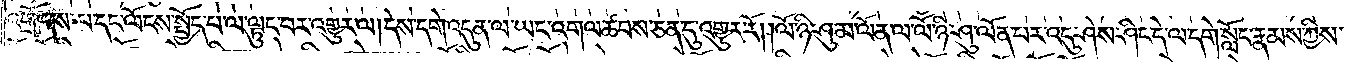འགྲོགས་པ་དང་ལོངས་སྤྱོད་པ་ལ་ལྟུང་བར་འགྱུར་ལ། དེ་དགེ་འདུན་ལ་ཡང་འགལ་ཚབས་ཅན་དུ་འགྱུར་རོ། །ལོ་ཉི་ཤུ་མ་ལོན་ལ་ལོ་ཉི་ཤུ་ལོན་པར་འདུ་ཤེས་ཤིང་དེ་ལ་དགེ་སློང་རྣམས་ཀྱིས་
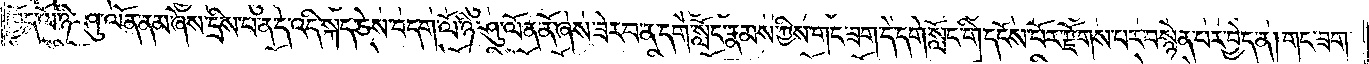ཁྱོད་ལོ་ཉི་ཤུ་ལོན་ནས་ཞེས་དྲིས་པ་ན་དེ་འདི་སྐད་ཅེས་བདག་ལོ་ཉི་ཤུ་ལོན་ནོ་ཞེས་ཟེར་བ་ན་དགེ་སློང་རྣམས་ཀྱིས་གང་ཟག་དེ་དགེ་སློང་གི་དངོས་པོར་རྫོགས་པར་བསྙེན་པར་བྱེད་ན། གང་ཟག་
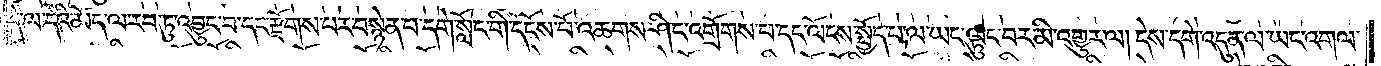དེ་ལ་དེའི་མོད་ལ་རབ་ཏུ་འབྱུང་བ་དང་རྫོགས་པར་བསྙེན་པ་དགེ་སློང་གི་དངོས་པོ་འཆགས་ཤིང་འགྲོགས་པ་དང་ལོངས་སྤྱོད་པ་ལ་ཡང་ལྟུང་བར་མི་འགྱུར་ལ། དེས་དགེ་འདུན་ལ་ཡང་འགལ་
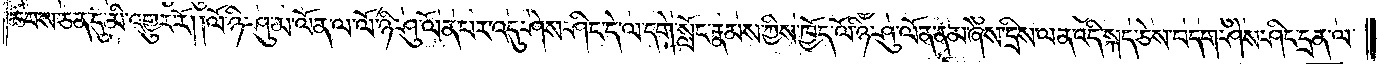ཚབས་ཅན་དུ་མི་འགྱུར་རོ། །ལོ་ཉི་ཤུ་མ་ལོན་ལ་ལོ་ཉི་ཤུ་ལོན་པར་འདུ་ཤེས་ཤིང་དེ་ལ་དགེ་སློང་རྣམས་ཀྱིས་ཁྱོད་ལོ་ཉི་ཤུ་ལོན་ནམ་ཞེས་དྲིས་ལན་འདི་སྐད་ཅེས་བདག་ཤེས་ཤིང་དྲན་ལ་
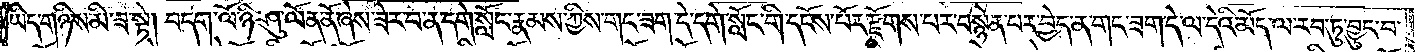ཡིད་གཉིས་མི་ཟ་སྟེ། བདག་ལོ་ཉི་ཤུ་ལོན་ཞེས་ཟེར་བ་ན་དགེ་སློང་རྣམས་ཀྱིས་གང་ཟག་དེ་དགེ་སློང་གི་དངོས་པོར་རྫོགས་པར་བསྙེན་པར་བྱེད་ན་གང་ཟག་དེ་ལ་དེའི་མོད་ལ་རབ་ཏུ་བྱུང་བ་
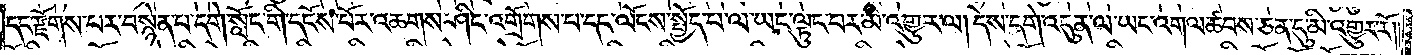དང་རྫོགས་པར་བསྙེན་པ་དགེ་སློང་དངོས་པར་འཆགས་ཤིང་འགྲོགས་པ་དང་ལོངས་སྤྱོད་པ་ལ་ཡང་ལྟུང་བ་མི་འགྱུར་ལ། དེས་དགེ་འདུན་ལ་ཡང་འགལ་ཚབས་ཅན་དུ་མི་འགྱུར་རོ།
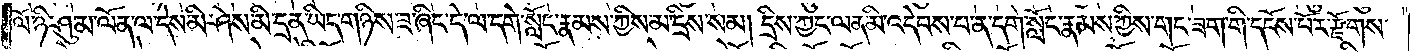ལོ་ཉི་ཤུ་མ་ལོན་ལ་དེས་མི་ཤེས་མི་དྲན་ཡིད་གཉིས་ཟ་ཞིང་དེ་ལ་དགེ་སློང་རྣམས་ཀྱིས་མ་དྲིས་སམ། དྲིས་ཀྱང་ལན་མི་འདེབས་པ་ན་དགེ་སློང་རྣམས་ཀྱིས་གང་ཟག་གི་དངོས་པར་རྫོགས་
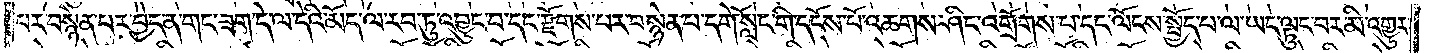པར་བསྙེན་པར་བྱེད་ན་གང་ཟག་དེ་ལ་དེའི་མོད་ལ་རབ་ཏུ་འབྱུང་བ་དང་རྫོགས་པར་བསྙེན་པ་དགེ་སློང་གི་དངོས་པོ་འཆགས་ཤིང་གྲོགས་པ་དང་ལོངས་སྤྱོད་པ་ལ་ཡང་ལྟུང་བར་མི་འགྱུར་
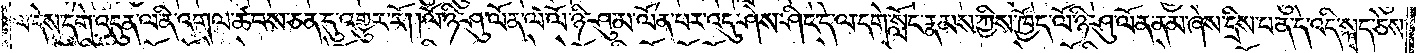ལ་དེས་དགེ་འདུན་ལ་ནི་འགལ་ཚབས་ཅན་དུ་འགྱུར་རོ། །ལོ་ཉི་ཤུ་ལོན་ལ་ལོ་ཉི་ཤུ་མ་ལོན་པར་འདུ་ཤེས་ཤིང་དེ་ལ་དགེ་སློང་རྣམས་ཀྱིས་ཁྱོད་ལོ་ཉི་ཤུ་ལོན་ནམ་ཞེས་དྲིས་པ་ན་དེ་འདི་སྐད་ཅེས་
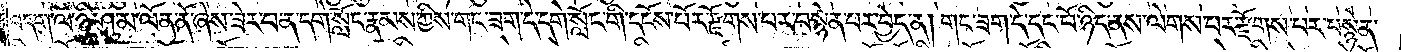བདག་ལོ་ཉི་ཤུ་མ་ལོན་ནོ་ཞེས་ཟེར་བ་ན་དགེ་སློང་རྣམས་ཀྱིས་གང་ཟག་དེ་དགེ་སློང་གི་དངོས་པོར་རྫོགས་པར་བསྙེན་པར་བྱེད་ན། གང་ཟག་དེ་དང་པོ་ཉིད་ནས་ལེགས་པར་རྫོགས་པར་བསྙེན་
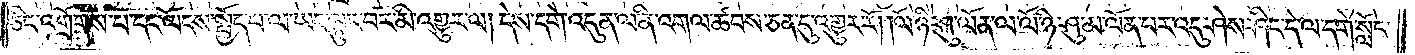ཅིང་འགྲོགས་པ་དང་ལོངས་སྤྱོད་པ་ལ་ཡང་ལྟུང་བར་མི་འགྱུར་ལ། དེས་དགེ་འདུན་ལ་ནི་འགལ་ཚབས་ཅན་དུ་འགྱུར་རོ། །ལོ་ཉི་ཤུ་ལོན་ལ་ལོ་ཉི་ཤུ་མ་ལོན་པར་འདུ་ཤེས་ཤིང་དེ་ལ་དགེ་སློང་
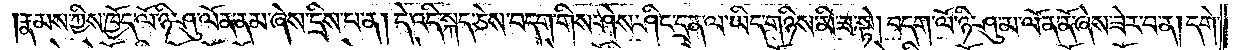རྣམས་ཀྱིས་ཁྱོད་ལོ་ཉི་ཤུ་ལོན་ནམ་ཞེས་དྲིས་པ་ན། དེ་འདི་སྐད་ཅེས་བདག་གིས་ཤེས་ཤིང་དྲན་ལ་ཡིད་གཉིས་མི་ཟ་སྟེ། བདག་ལོ་ཉི་ཤུ་མ་ལོན་ནོ་ཞེས་ཟེར་བ་ན། དགེ་
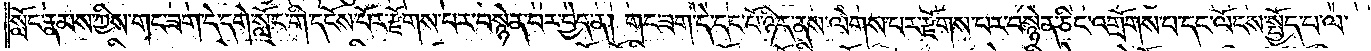སློང་རྣམས་ཀྱིས་གང་ཟག་དེ་དགེ་སློང་གི་དངོས་པོར་རྫོགས་པར་བསྙེན་པར་བྱེད་ན། གང་ཟག་དེ་དང་པོ་ཉིད་ནས་ལེགས་པར་རྫོགས་པར་བསྙེན་ཅིང་འགྲོགས་པ་དང་ལོངས་སྤྱོད་པ་ལ་
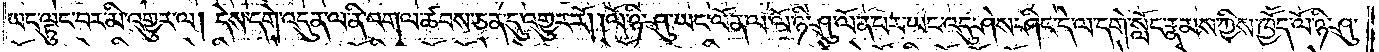ཡང་ལྟུང་བར་མི་འགྱུར་ལ། དེས་དགེ་འདུན་ལ་ནི་འགལ་ཚབས་ཅན་དུ་འགྱུར་རོ། །ལོ་ཉི་ཤུ་ཡང་ལོན་ལ་ལོ་ཉི་ཤུ་ལོན་པར་ཡང་འདུ་ཤེས་ཤིང་དེ་ལ་དགེ་སློང་རྣམས་ཀྱིས་ཁྱོད་ལོ་ཉི་ཤུ་
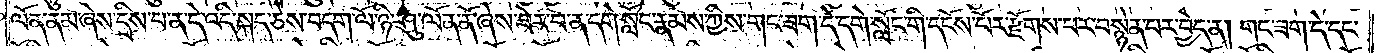ལོན་ནམ་ཞེས་དྲིས་པ་ན་དེ་འདི་སྐད་ཅེས་བདག་ལོ་ཉི་ཤུ་ལོན་ནོ་ཞེས་ཟེར་བ་ན་དགེ་སློང་རྣམས་ཀྱིས་གང་ཟག་དེ་དགེ་སློང་གི་དངོས་པོར་རྫོགས་པར་བསྙེན་པར་བྱེད་ན། གང་ཟག་དེ་དང་
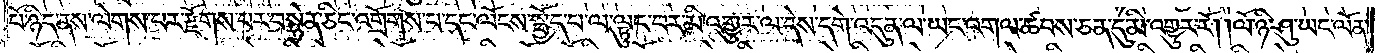པོ་ཉིད་ནས་ལེགས་པར་རྫོགས་པར་བསྙེན་ཅིང་འགྲོགས་པ་དང་ལོངས་སྤྱོད་པ་ལ་ལྟུང་བར་མི་འགྱུར་ལ་དེས་དགེ་འདུན་ལ་ཡང་འགལ་ཚབས་ཅན་དུ་མི་འགྱུར་རོ། །ལོ་ཉི་ཤུ་ཡང་ལོན་
